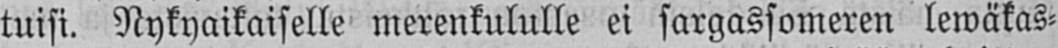tuisi. Nykyaikaiselle merenkululle ei sargassomeren lewäkas-
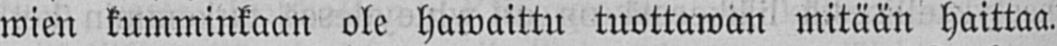wien kumminkaan ole hawaittu tuottawan mitään haittaa.
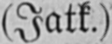(Jatk.)
